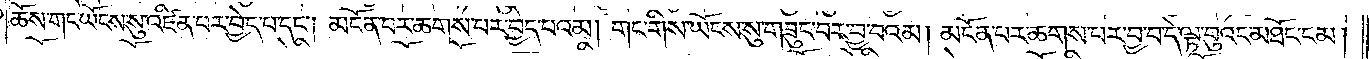ཆོས་གང་ཡོངས་སུ་འཛིན་པར་བྱེད་པ་དང༌། མངོན་པར་ཆགས་པར་བྱེད་པའམ། གང་གིས་ཡོངས་སུ་གཟུང་བར་བྱ་བའམ། མངོན་པར་ཆགས་པར་བྱ་བ་དེ་ལྟ་བུའང་མཐོང་ངམ།
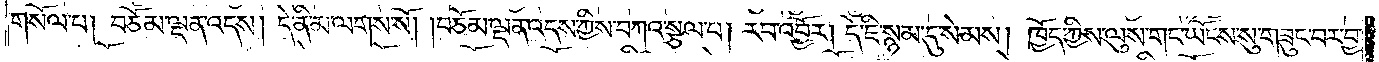གསོལ་པ། བཅོམ་ལྡན་འདས། དེ་ནི་མ་ལགས་སོ། །བཅོམ་ལྡན་འདས་ཀྱིས་བཀའ་སྩལ་པ། རབ་འབྱོར། དེ་ཇི་སྙམ་དུ་སེམས། ཁྱོད་ཀྱིས་ལུས་གང་ཡོངས་སུ་གཟུང་བར་བྱ་
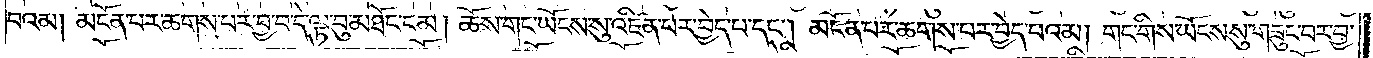བའམ། མངོན་པར་ཆགས་པར་བྱ་བ་དེ་ལྟ་བུ་མཐོང་ངམ། ཆོས་གང་ཡོངས་སུ་འཛིན་པར་བྱེད་པ་དང་མངོན་པར་ཆགས་པར་བྱེད་པའམ། གང་གིས་ཡོངས་སུ་གཟུང་བར་བྱ་
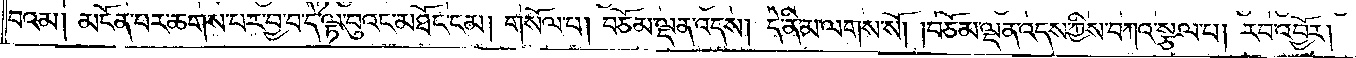བའམ། མངོན་པར་ཆགས་པར་བྱ་བ་དེ་ལྟ་བུ་མཐོང་ངམ། གསོལ་པ། བཅོམ་ལྡན་འདས། དེ་ནི་མ་ལགས་སོ། །བཅོམ་ལྡན་འདས་ཀྱིས་བཀའ་སྩལ་པ། རབ་འབྱོར།
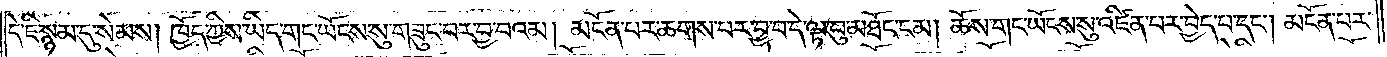དེ་ཇི་སྙམ་དུ་སེམས། ཁྱོད་ཀྱིས་ཡིད་གང་ཡོངས་སུ་གཟུང་བར་བྱ་བའམ། མངོན་པར་ཆགས་པར་བྱ་བ་དེ་ལྟ་བུ་མཐོང་ངམ། ཆོས་གང་ཡོངས་སུ་འཛིན་པར་བྱེད་པ་དང༌། མངོན་པར་
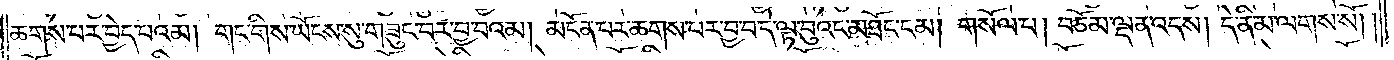ཆགས་པར་བྱེད་པའམ། གང་གིས་ཡོངས་སུ་གཟུང་བར་བྱ་བའམ། མངོན་པར་ཆགས་པར་བྱ་བ་དེ་ལྟ་བུའང་མཐོང་ངམ། གསོལ་པ། བཅོམ་ལྡན་འདས། དེ་ནི་མ་ལགས་སོ། །
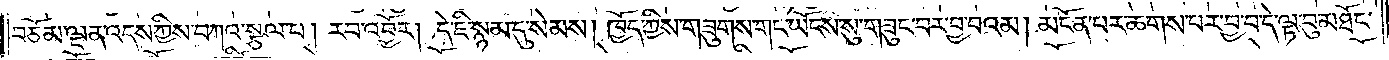བཅོམ་ལྡན་འདས་ཀྱིས་བཀའ་སྩལ་པ། རབ་འབྱོར། དེ་ཇི་སྙམ་དུ་སེམས། ཁྱོད་ཀྱིས་གཟུགས་གང་ཡོངས་སུ་གཟུང་བར་བྱ་བའམ། མངོན་པར་ཆགས་པར་བྱ་བ་དེ་ལྟ་བུ་མཐོང་
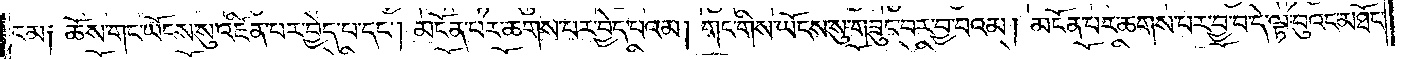ངམ༑ ཆོས་གང་ཡོངས་སུ་འཛིན་པར་བྱེད་པ་དང༌། མངོན་པར་ཆགས་པར་བྱེད་པའམ། གང་གིས་ཡོངས་སུ་གཟུང་བར་བྱ་བའམ། མངོན་པར་ཆགས་པར་བྱ་བ་དེ་ལྟ་བུའང་མཐོང་
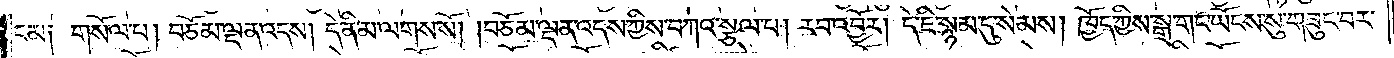ངམ༑ གསོལ་པ། བཅོམ་ལྡན་འདས། དེ་ནི་མ་ལགས་སོ། །བཅོམ་ལྡན་འདས་ཀྱིས་བཀའ་སྩལ་པ། རབ་འབྱོར། དེ་ཇི་སྙམ་དུ་སེམས། ཁྱོད་ཀྱིས་སྒྲ་གང་ཡོངས་སུ་གཟུང་བར་
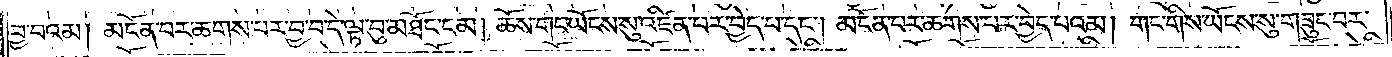བྱ་བའམ། མངོན་པར་ཆགས་པར་བྱ་བ་དེ་ལྟ་བུ་མཐོང་ངམ། ཆོས་གང་ཡོངས་སུ་འཛིན་པར་བྱེད་པ་དང༌། མངོན་པར་ཆགས་པར་བྱེད་པའམ། གང་གིས་ཡོངས་སུ་གཟུང་བར་
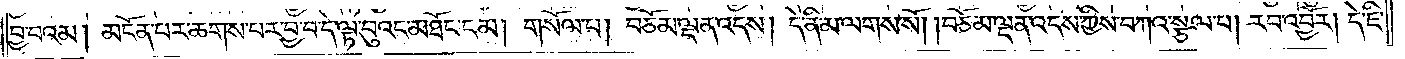བྱ་བའམ། མངོན་པར་ཆགས་པར་བྱ་བ་དེ་ལྟ་བུའང་མཐོང་ངམ། གསོལ་པ། བཅོམ་ལྡན་འདས། དེ་ནི་མ་ལགས་སོ། །བཅོམ་ལྡན་འདས་ཀྱིས་བཀའ་སྩལ་པ། རབ་འབྱོར། དེ་ཇི་
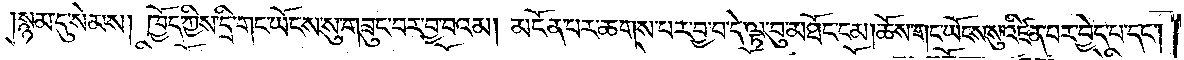སྙམ་དུ་སེམས། ཁྱོད་ཀྱིས་དྲི་གང་ཡོངས་སུ་གཟུང་བར་བྱ་བའམ། མངོན་པར་ཆགས་པར་བྱ་བ་དེ་ལྟ་བུ་མཐོང་ངམ། ཆོས་གང་ཡོངས་སུ་འཛིན་པར་བྱེད་པ་དང༌།
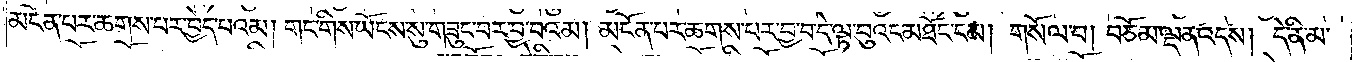མངོན་པར་ཆགས་པར་བྱེད་པའམ། གང་གིས་ཡོངས་སུ་གཟུང་བར་བྱ་བའམ། མངོན་པར་ཆགས་པར་བྱ་བ་དེ་ལྟ་བུའང་མཐོང་ངམ། གསོལ་པ། བཅོམ་ལྡན་འདས། དེ་ནི་མ་
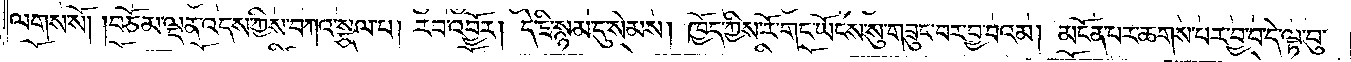ལགས་སོ། །བཅོམ་ལྡན་འདས་ཀྱིས་བཀའ་སྩལ་པ། རབ་འབྱོར། དེ་ཇི་སྙམ་དུ་སེམས། ཁྱོད་ཀྱིས་རོ་གང་ཡོངས་སུ་གཟུང་བར་བྱ་བའམ། མངོན་པར་ཆགས་པར་བྱ་བ་དེ་ལྟ་བུ་
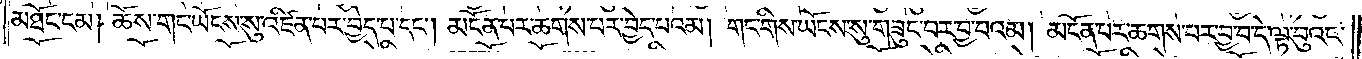མཐོང་ངམ། ཆོས་གང་ཡོངས་སུ་འཛིན་པར་བྱེད་པ་དང༌། མངོན་པར་ཆགས་པར་བྱེད་པའམ། གང་གིས་ཡོངས་སུ་གཟུང་བར་བྱ་བའམ། མངོན་པར་ཆགས་པར་བྱ་བ་དེ་ལྟ་བུའང་
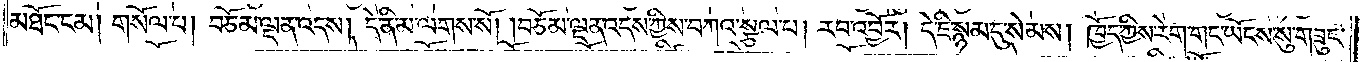མཐོང་ངམ། གསོལ་པ། བཅོམ་ལྡན་འདས། དེ་ནི་མ་ལགས་སོ། །བཅོམ་ལྡན་འདས་ཀྱིས་བཀའ་སྩལ་པ། རབ་འབྱོར། དེ་ཇི་སྙམ་དུ་སེམས། ཁྱོད་ཀྱིས་རེག་གང་ཡོངས་སུ་གཟུང་
